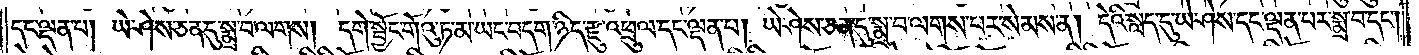དང་ལྡན་པ། ཡེ་ཤེས་ཅན་དུ་སྨྲ་བ་ལགས། དགེ་སྦྱོང་གོའུ་ཏ་མ་ཡང་བདག་ཉིད་རྫུ་འཕྲུལ་དང་ལྡན་པ། ཡེ་ཤེས་ཅན་དུ་སྨྲ་བ་ལགས་པར་སེམས་ན། དེའི་སླད་དུ་ཡེ་ཤེས་དང་ལྡན་པར་སྨྲ་བ་དང༌།
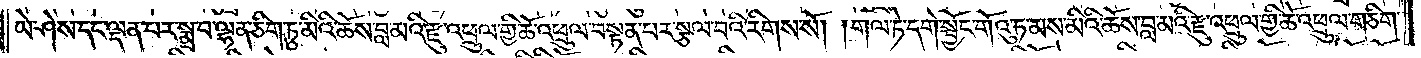ཡེ་ཤེས་དང་ལྡན་པར་སྨྲ་བ་ལྷན་ཅིག་ཏུ་མིའི་ཆོས་བླ་མའི་རྫུ་འཕྲུལ་གྱི་ཆོ་འཕྲུལ་བསྟན་པར་སྩལ་བའི་རིགས་སོ། །གལ་ཏེ་དགེ་སྦྱོང་གོའུ་ཏ་མས་མིའི་ཆོས་བླ་མའི་རྫུ་འཕྲུལ་གྱི་ཆོ་འཕྲུལ་གཅིག་
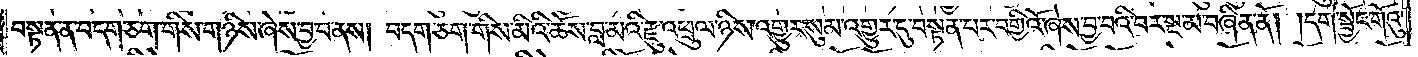བསྟན་ན་བདག་ཅག་གིས་གཉིས་ཞེས་བྱ་བ་ནས། བདག་ཅག་གིས་མིའི་ཆོས་བླ་མའི་རྫུ་འཕྲུལ་ཉིས་འགྱུར་སུམ་འགྱུར་དུ་བསྟན་པར་བགྱིའོ་ཞེས་བྱ་བའི་བར་སྔ་མ་བཞིན་ནོ། །དགེ་སྦྱོང་གོའུ་
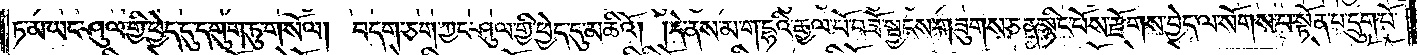ཏ་མ་ཡང་ཤུལ་གྱི་ཕྱེད་དུ་དགུག་ཏུ་གསོལ། བདག་ཅག་ཀྱང་ཤུལ་གྱི་ཕྱེད་དུ་མཆིའོ། །དེ་ནས་མ་ག་དྷའི་རྒྱལ་པོ་བཟོ་སྦྱངས་གཟུགས་ཅན་སྙིང་པོས་རྫོགས་བྱེད་ལ་སོགས་པ་སྟོན་པ་དྲུག་པོ་
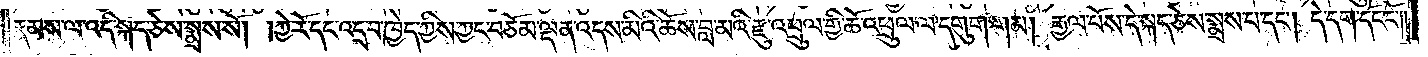རྣམས་ལ་འདི་སྐད་ཅེས་སྨྲས་སོ། །ཀྱེ་རོ་དང་འདྲ་བ་ཁྱེད་ཀྱིས་ཀྱང་བཅོམ་ལྡན་འདས་མིའི་ཆོས་བླ་མའི་རྫུ་འཕྲུལ་གྱི་ཆོ་འཕྲུལ་ལ་དགུག་གམ། རྒྱལ་པོས་དེ་སྐད་ཅེས་སྨྲས་པ་དང༌། དེ་དག་དོང་ངོ༌༎
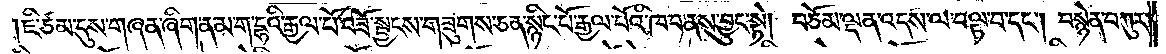ཇི་ཙམ་དུས་གཞན་ཞིག་ན་མ་ག་དྷའི་རྒྱལ་པོ་བཟོ་སྦྱངས་གཟུགས་ཅན་སྙིང་པོ་རྒྱལ་པོའི་ཁབ་ནས་བྱུང་སྟེ། བཅོམ་ལྡན་འདས་ལ་བལྟ་བ་དང༌། བསྙེན་བཀུར་
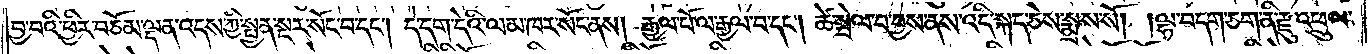བྱ་བའི་ཕྱིར་བཅོམ་ལྡན་འདས་ཀྱི་སྤྱན་སྔར་སོང་བ་དང༌། དེ་དག་དེའི་ལམ་ཁར་སོང་ནས། རྒྱལ་པོ་ལ་རྒྱལ་བ་དང༌། ཚེ་སྤེལ་བ་བྱས་ནས་འདི་སྐད་ཅེས་སྨྲས་སོ། །ལྷ་བདག་ཅག་ནི་རྫུ་འཕྲུལ་
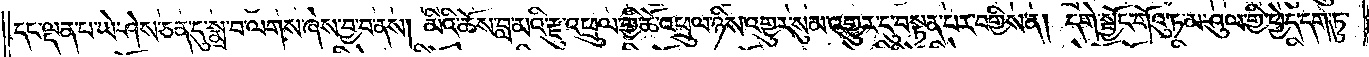དང་ལྡན་པ་ཡེ་ཤེས་ཅན་དུ་སྨྲ་བ་ལགས་ཞེས་བྱ་བ་ནས། མིའི་ཆོས་བླ་མའི་རྫུ་འཕྲུལ་གྱི་ཆོ་འཕྲུལ་ཉིས་འགྱུར་སུམ་འགྱུར་དུ་བསྟན་པར་བགྱིས་ན། དགེ་སྦྱོང་གོའུ་ཏ་མ་ཤུལ་གྱི་ཕྱེད་དག་ཏུ་
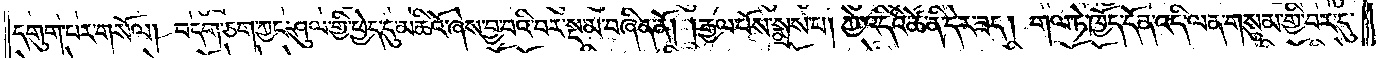དགུག་པར་གསོལ། བདག་ཅག་ཀྱང་ཤུལ་གྱི་ཕྱེད་དུ་མཆིའོ་ཞེས་བྱ་བའི་བར་སྔ་མ་བཞིན་ནོ། །རྒྱལ་པོས་སྨྲས་པ། ཀྱེ་འདིའི་ཚེ་ནི་དེར་ཟད། གལ་ཏེ་ཁྱོད་དོན་འདི་ལན་གསུམ་གྱི་བར་དུ་
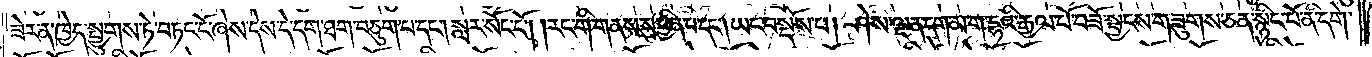ཟེར་ན་ཁྱེད་སྤྱུགས་ཏེ་བཏང་ངོ་ཞེས་དེས་དེ་དག་ཐག་བཅུག་པ་དང༌། སླར་སོང་ངོ༌། །རང་གི་གནས་སུ་ཕྱིན་པ་དང༌། ཡང་བསྡོས་པ། ཤེས་ལྡན་དག་མ་ག་དྷའི་རྒྱལ་པོ་བཟོ་སྦྱངས་གཟུགས་ཅན་སྙིང་པོ་ནི་དགེ་
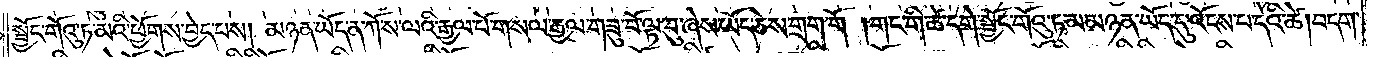སྦྱོང་གོའུ་ཏ་མའི་ཕྱོགས་བྱེད་པས། མཉན་ཡོད་ན་ཀོ་ས་ལའི་རྒྱལ་པོ་གསལ་རྒྱལ་གཟུ་བོ་ལྟ་བུ་ཞེས་ཡོད་ཅེས་གྲག་གོ །གང་གི་ཚེ་དགེ་སྦྱོང་གོའུ་ཏ་མ་མཉན་ཡོད་དུ་འོངས་པ་དེའི་ཚེ། བདག་
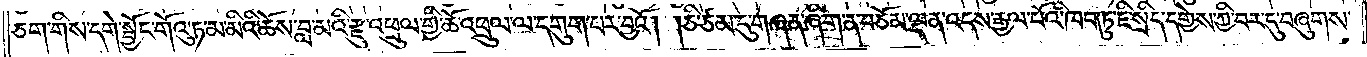ཅག་གིས་དགེ་སྦྱོང་གོའུ་ཏ་མ་མིའི་ཆོས་བླ་མའི་རྫུ་འཕྲུལ་གྱི་ཆོ་འཕྲུལ་ལ་དགུག་པར་བྱའོ། །ཅི་ཙམ་དུ་གཞན་ཞིག་ན་བཅོམ་ལྡན་འདས་རྒྱལ་པོའི་ཁབ་ཏུ་ཇི་སྲིད་དགྱེས་ཀྱི་བར་དུ་བཞུགས་
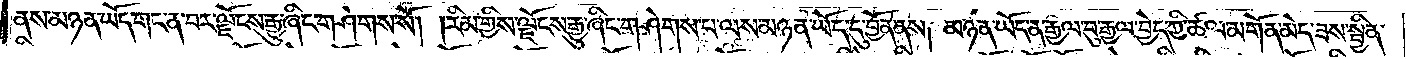ནས་མཉན་ཡོད་གང་ན་བར་ལྗོངས་རྒྱུ་ཞིང་གཤེགས་སོ། །རིམ་གྱིས་ལྗོངས་རྒྱུ་ཞིང་གཤེགས་པ་ལས་མཉན་ཡོད་དུ་བྱོན་ནས། མཉན་ཡོད་ན་རྒྱལ་བུ་རྒྱལ་བྱེད་ཀྱི་ཚལ་མགོན་མེད་ཟས་སྦྱིན་
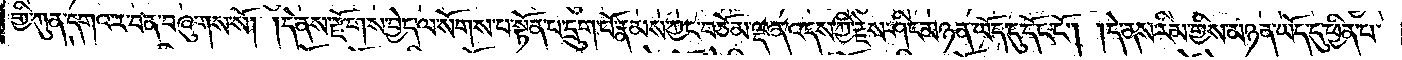གྱི་ཀུན་དགའ་ར་བ་ན་བཞུགས་སོ། །དེ་ནས་རྫོགས་བྱེད་ལ་སོགས་པ་སྟོན་པ་དྲུག་པོ་རྣམས་ཀྱང་བཅོམ་ལྡན་འདས་ཀྱི་རྗེས་ཤིང་མཉན་ཡོད་དུ་དོང་ངོ༌། །དེ་ནས་རིམ་གྱིས་མཉན་ཡོད་དུ་ཕྱིན་པ་
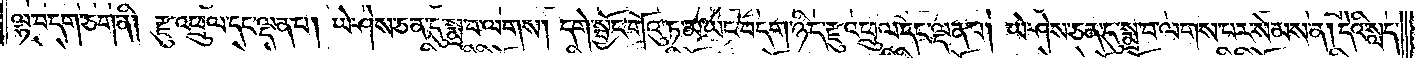ལྷ་བདག་ཅག་ནི། རྫུ་འཕྲུལ་དང་ལྡན་པ། ཡེ་ཤེས་ཅན་དུ་སྨྲ་བ་ལགས། དགེ་སྦྱོང་གོའུ་ཏ་མ་ཡང་བདག་ཉིད་རྫུ་འཕྲུལ་དང་ལྡན་པ། ཡེ་ཤེས་ཅན་དུ་སྨྲ་བ་ལགས་པར་སེམས་ན། དེའི་སླད་
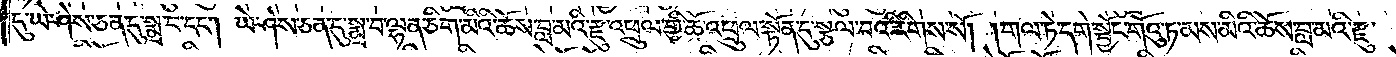དུ་ཡེ་ཤེས་ཅན་དུ་སྨྲ་བ་དང༌། ཡེ་ཤེས་ཅན་དུ་སྨྲ་བ་ལྷན་ཅིག་མིའི་ཆོས་བླ་མའི་རྫུ་འཕྲུལ་གྱི་ཆོ་འཕྲུལ་སྟོན་དུ་སྩལ་བའི་རིགས་སོ། །གལ་ཏེ་དགེ་སྦྱོང་གོའུ་ཏ་མས་མིའི་ཆོས་བླ་མའི་རྫུ་
